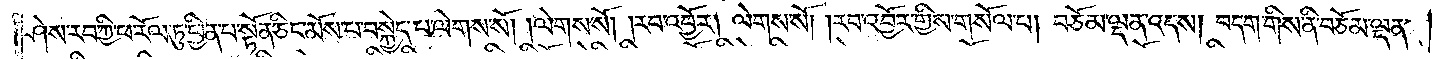ཤེས་རབ་ཀྱི་ཕ་རོལ་ཏུ་ཕྱིན་པ་སྟོན་ཅིང་མོས་པ་བསྐྱེད་པ་ལེགས་སོ། །ལེགས་སོ། །རབ་འབྱོར། ལེགས་སོ། །རབ་འབྱོར་གྱིས་གསོལ་བ། བཅོམ་ལྡན་འདས། བདག་གིས་ནི་བཅོམ་ལྡན་
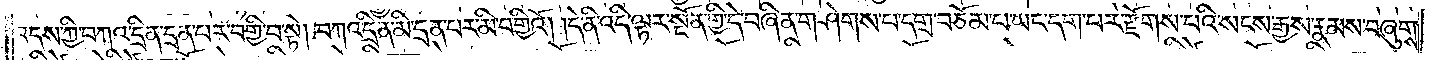འདས་ཀྱི་བཀའ་དྲིན་དྲན་པར་བགྱི་བ་སྟེ། བཀའ་དྲིན་མི་དྲན་པར་མི་བགྱིའོ། །དེ་ནི་འདི་ལྟར་སྔོན་གྱི་དེ་བཞིན་གཤེགས་པ་དགྲ་བཅོམ་པ་ཡང་དག་པར་རྫོགས་པའི་སངས་རྒྱས་རྣམས་བཞུགས་
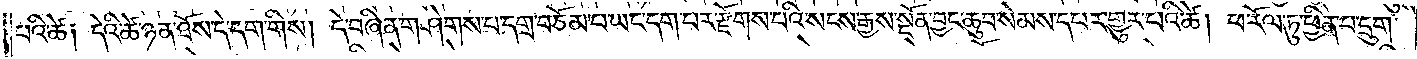པའི་ཚེ། དེའི་ཚེ་ཉན་ཐོས་དེ་དག་གིས། དེ་བཞིན་གཤེགས་པ་དགྲ་བཅོམ་པ་ཡང་དག་པར་རྫོགས་པའི་སངས་རྒྱས་སྔོན་བྱང་ཆུབ་སེམས་དཔར་གྱུར་པའི་ཚེ། ཕ་རོལ་ཏུ་ཕྱིན་པ་དྲུག་
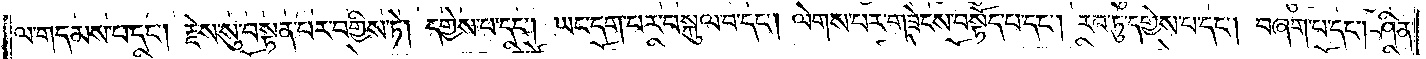ལ་གདམས་པ་དང༌། རྗེས་སུ་བསྟན་པར་བགྱིས་ཏེ། དགྱེས་པ་དང༌། ཡང་དག་པར་བསྐུལ་བ་དང༌། ལེགས་པར་གཟེངས་བསྟོད་པ་དང༌། རབ་ཏུ་དགྱེས་པ་དང༌། བཞག་པ་དང༌། ཤིན་
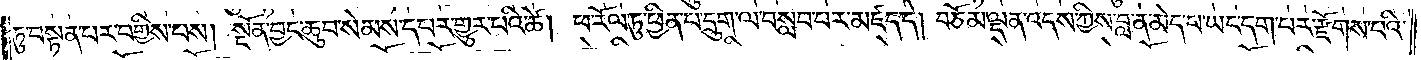ཏུ་བསྟན་པར་བགྱིས་པས། སྔོན་བྱང་ཆུབ་སེམས་དཔར་གྱུར་པའི་ཚེ། ཕ་རོལ་ཏུ་ཕྱིན་པ་དྲུག་ལ་བསླབ་པར་མཛད་དེ། བཅོམ་ལྡན་འདས་ཀྱིས་བླ་ན་མེད་པ་ཡང་དག་པར་རྫོགས་པའི་
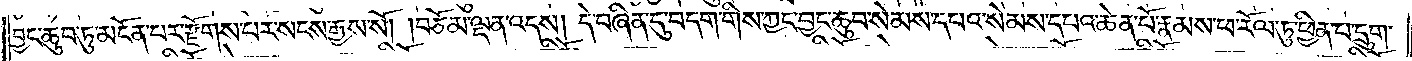བྱང་ཆུབ་ཏུ་མངོན་པར་རྫོགས་པར་སངས་རྒྱས་སོ། །བཅོམ་ལྡན་འདས། དེ་བཞིན་དུ་བདག་གིས་ཀྱང་བྱང་ཆུབ་སེམས་དཔའ་སེམས་དཔའ་ཆེན་པོ་རྣམས་ཕ་རོལ་ཏུ་ཕྱིན་པ་དྲུག་
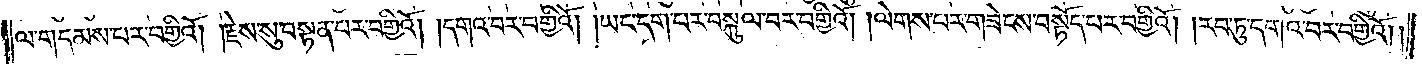ལ་གདམས་པར་བགྱིའོ། །རྗེས་སུ་སྟན་པར་བགྱིའོ། །དགའ་བར་བགྱིའོ། །ཡང་དག་པར་བསྐུལ་བར་བགྱིའོ། །ལེགས་པར་གཟེངས་བསྟོད་པར་བགྱིའོ། །རབ་ཏུ་དགའ་བར་བགྱིའོ། །
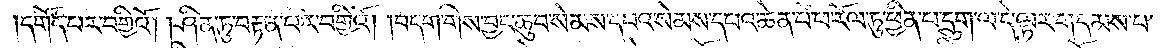དགོད་པར་བགྱིའོ། །ཤིན་ཏུ་བརྟན་པར་བགྱིའོ། །བདག་གིས་བྱང་ཆུབ་སེམས་དཔའ་སེམས་དཔའ་ཆེན་པོ་ཕ་རོལ་ཏུ་ཕྱིན་པ་དྲུག་ལ་དེ་ལྟར་གདམས་པ་
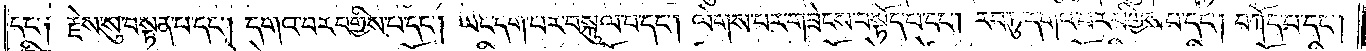དང༌། རྗེས་སུ་བསྟན་པ་དང༌། དགའ་བར་བགྱིས་པ་དང༌། ཡང་དག་པར་བསྐུལ་བ་དང༌། ལེགས་པར་གཟེངས་བསྟོད་པ་དང༌། རབ་ཏུ་དགའ་བར་བགྱིས་པ་དང༌། བཀོད་པ་དང༌།
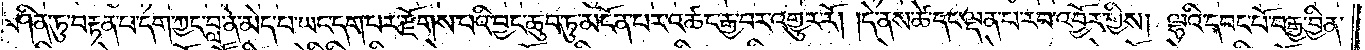ཤིན་ཏུ་བརྟན་པ་དག་ཀྱང་བླ་ན་མེད་པ་ཡང་དག་པར་རྫོགས་པའི་བྱང་ཆུབ་ཏུ་མངོན་པར་འཚང་རྒྱ་བར་འགྱུར་རོ། །དེ་ནས་ཚེ་དང་ལྡན་པ་རབ་འབྱོར་གྱིས། ལྷའི་དབང་པོ་བརྒྱ་བྱིན་
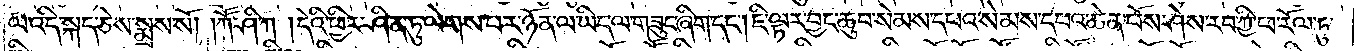ལ་འདི་སྐད་ཅེས་སྨྲས་སོ། །ཀཽ་ཤི་ཀ །དེའི་ཕྱིར་ཤིན་ཏུ་ལེགས་པར་ཉོན་ལ་ཡིད་ལ་གཟུང་ཞིག་དང༌། ཇི་ལྟར་བྱང་ཆུབ་སེམས་དཔའ་སེམས་དཔའ་ཆེན་པོས་ཤེས་རབ་ཀྱི་ཕ་རོལ་ཏུ་
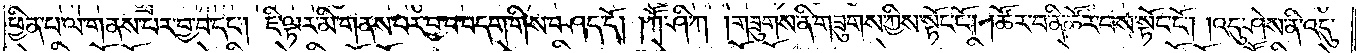ཕྱིན་པ་ལ་གནས་པར་བྱ་བ་དང༌། ཇི་ལྟར་མི་གནས་པར་བྱ་བ་བདག་གིས་བཤད་དོ། །ཀཽ་ཤི་ཀ །གཟུགས་ནི་གཟུགས་ཀྱིས་སྟོང་ངོ༌། །ཚོར་བ་ནི་ཚོར་བས་སྟོང་ངོ༌། །འདུ་ཤེས་ནི་འདུ་
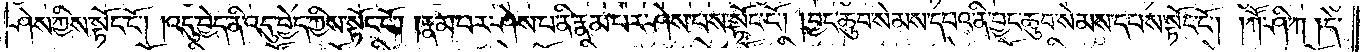ཤེས་ཀྱིས་སྟོང་ངོ༌། །འདུ་བྱེད་ནི་འདུ་བྱེད་ཀྱིས་སྟོང་ངོ༌། །རྣམ་པར་ཤེས་པ་ནི་རྣམ་པར་ཤེས་པས་སྟོང་ངོ༌། །བྱང་ཆུབ་སེམས་དཔའ་ནི་བྱང་ཆུབ་སེམས་དཔས་སྟོང་ངོ༌། །ཀཽ་ཤི་ཀ །དེ་
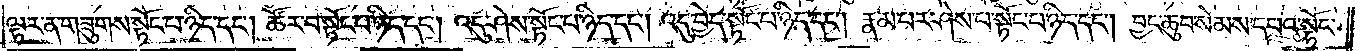ལྟར་ན་གཟུགས་སྟོང་པ་ཉིད་དང༌། ཚོར་བ་སྟོང་པ་ཉིད་དང༌། འདུ་ཤེས་སྟོང་པ་ཉིད་དང༌། འདུ་བྱེད་སྟོང་པ་ཉིད་དང༌། རྣམ་པར་ཤེས་པ་སྟོང་པ་ཉིད་དང༌། བྱང་ཆུབ་སེམས་དཔའ་སྟོང་
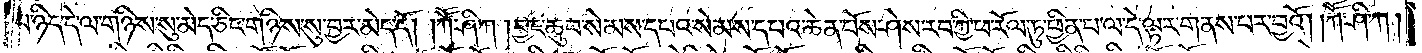པ་ཉིད་དེ་ལ་གཉིས་སུ་མེད་ཅིང་གཉིས་སུ་བྱར་མེད་དོ། །ཀཽ་ཤི་ཀ །བྱང་ཆུབ་སེམས་དཔའ་སེམས་དཔའ་ཆེན་པོས་ཤེས་རབ་ཀྱི་ཕ་རོལ་ཏུ་ཕྱིན་པ་ལ་དེ་ལྟར་གནས་པར་བྱའོ། །ཀཽ་ཤི་ཀ་
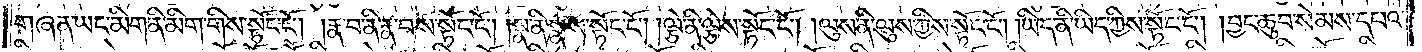གཞན་ཡང་མིག་ནི་མིག་གིས་སྟོང་ངོ༌། །རྣ་བ་ནི་རྣ་བས་སྟོང་ངོ༌། །སྣ་ནི་སྣས་སྟོང་ངོ༌། །ལྕེ་ནི་ལྕེས་སྟོང་ངོ༌། །ལུས་ནི་ལུས་ཀྱིས་སྟོང་ངོ༌། །ཡིད་ནི་ཡིད་ཀྱིས་སྟོང་ངོ༌། །བྱང་ཆུབ་སེམས་དཔའ་
